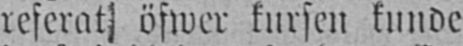referat öfwer kursen kunde
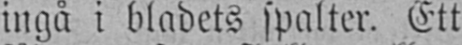ingå i bladets spalter. Ett
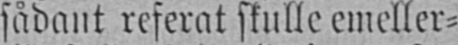sådant referat skulle emeller-
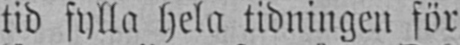tid fylla hela tidningen för
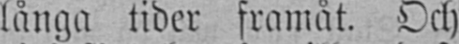långa tider framåt. Och
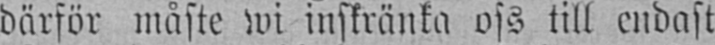därför måste wi inskränka oss till endast
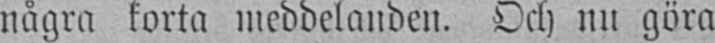några korta meddelanden. Och nu göra
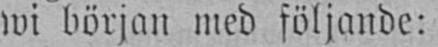wi början med följande:
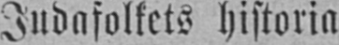Judafolkets historia
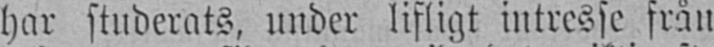har studerats, under lifligt intresse från
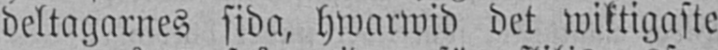deltagarnes sida, hwarwid det wiktigaste
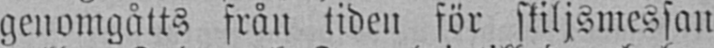genomgåtts från tiden för skiljsmessan
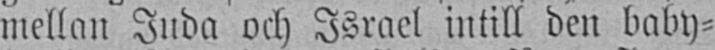mellan Juda och Israel intill den baby-
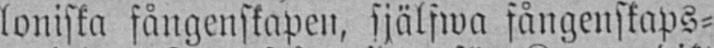loniska fångenskapen, själfwa fångenskaps-
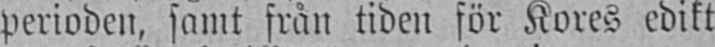perioden, samt från tiden för Kores edikt
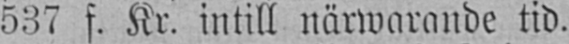537 f. Kr. intill närwarande tid.
